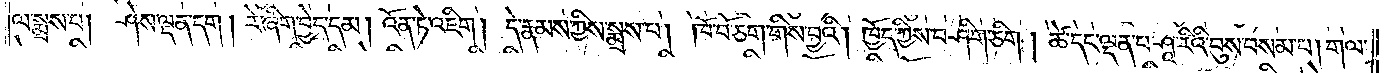ལ་སྨྲས་པ། ཤེས་ལྡན་དག །རེ་ཞིག་བྱེད་དམ། འོན་ཏེ་འཇིག །དེ་རྣམས་ཀྱིས་སྨྲས་པ། ཁོ་བོ་ཅག་གིས་བྱའི། །ཁྱོད་ཀྱིས་བཤིག་ཅིག །ཚེ་དང་ལྡན་པ་ཤཱ་རིའི་བུས་བསམ་པ། གལ་
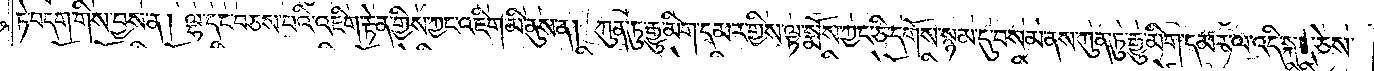ཏེ་བདག་གིས་བྱས་ན། ལྷ་དང་བཅས་པའི་འཇིག་རྟེན་གྱིས་ཀྱང་འཇིག་མི་ནུས་ན། ཀུན་ཏུ་རྒྱུ་མིག་དམར་གྱིས་ལྟ་སྨོས་ཀྱང་ཅི་དགོས་སྙམ་དུ་བསམ་ནས་ཀུན་ཏུ་རྒྱུ་མིག་དམར་ལ་འདི་སྐད་ཅེས་
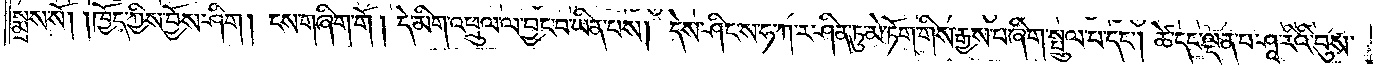སྨྲས་སོ། །ཁྱོད་ཀྱིས་བྱོས་ཤིག །ངས་གཞིག་གོ །དེ་མིག་འཕྲུལ་ལ་བྱང་བ་ཡིན་པས། དེས་ཤིང་ས་ཧ་ཀ་ར་ཤིན་ཏུ་མེ་ཏོག་གིས་རྒྱས་པ་ཞིག་སྤྲུལ་པ་དང༌། ཚེ་དང་ལྡན་པ་ཤཱ་རིའི་བུས་
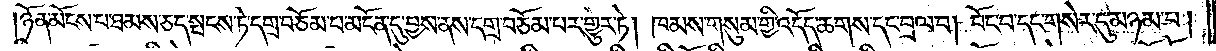ཉོན་མོངས་པ་ཐམས་ཅད་སྤངས་ཏེ་དགྲ་བཅོམ་པ་མངོན་དུ་བྱས་ནས་དགྲ་བཅོམ་པར་གྱུར་ཏེ། ཁམས་གསུམ་གྱི་འདོད་ཆགས་དང་བྲལ་བ། བོང་བ་དང་གསེར་དུ་མཉམ་པ།
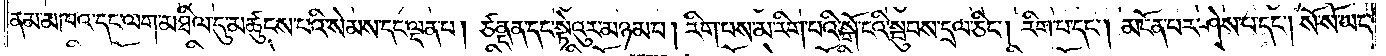ནམ་མཁའ་དང་ལག་མཐིལ་དུ་མཚུངས་པའི་སེམས་དང་ལྡན་པ། ཙནྡན་དང་སྟེའུར་མཉམ་པ། རིག་པས་མ་རིག་པའི་སྒོ་ངའི་སྦུབས་དྲལ་ཅིང༌། རིག་པ་དང༌། མངོན་པར་ཤེས་པ་དང༌། སོ་སོ་ཡང་
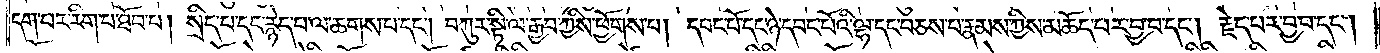དག་པར་རིག་པ་ཐོབ་པ། སྲིད་པ་དང་རྙེད་པ་ལ་ཆགས་པ་དང༌། བཀུར་སྟི་ལ་རྒྱབ་ཀྱིས་ཕྱོགས་པ། དབང་པོ་དང་ཉེ་དབང་པོའི་ལྷ་དང་བཅས་པ་རྣམས་ཀྱིས་མཆོད་པར་བྱ་བ་དང༌། རྗེད་པར་བྱ་བ་དང༌།
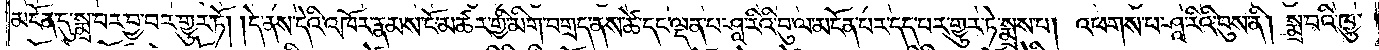མངོན་དུ་སྨྲ་བར་བྱ་བར་གྱུར་ཏོ། །དེ་ནས་དེའི་འཁོར་རྣམས་ངོ་མཚར་གྱི་མིག་བགྲད་ནས་ཚེ་དང་ལྡན་པ་ཤཱ་རིའི་བུ་ལ་མངོན་པར་དད་པར་གྱུར་ཏེ་སྨྲས་པ། འཕགས་པ་ཤཱ་རིའི་བུས་ནི། སྨྲ་བའི་ཁྱུ་
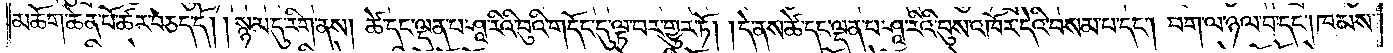མཆོག་ཆེན་པོ་ཚར་བཅད་དོ། །སྙམ་དུ་རིག་ནས། ཚེ་དང་ལྡན་པ་ཤཱ་རིའི་བུའི་གདོང་དུ་ལྟ་བར་གྱུར་ཏོ། །དེ་ནས་ཚེ་དང་ལྡན་པ་ཤཱ་རིའི་བུས་འཁོར་དེའི་བསམ་པ་དང༌། བག་ལ་ཉལ་བ་དང༌། ཁམས་
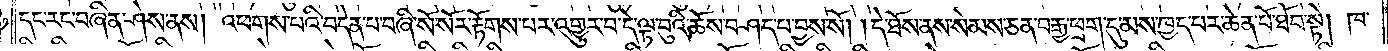དང་རང་བཞིན་ཤེས་ནས། འཕགས་པའི་བདེན་པ་བཞི་སོ་སོར་རྟོགས་པར་འགྱུར་བ་དེ་ལྟ་བུའི་ཆོས་བཤད་པ་བྱས་སོ། །དེ་ཐོས་ནས་སེམས་ཅན་བརྒྱ་ཕྲག་དུ་མས་ཁྱད་པར་ཆེན་པོ་ཐོབ་སྟེ། ཁ་
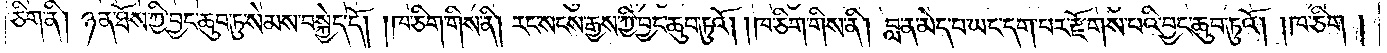ཅིག་ནི། ཉན་ཐོས་ཀྱི་བྱང་ཆུབ་ཏུ་སེམས་བསྐྱེད་དོ། །ཁ་ཅིག་གིས་ནི། རང་སངས་རྒྱས་ཀྱི་བྱང་ཆུབ་ཏུའོ། །ཁ་ཅིག་གིས་ནི། བླ་ན་མེད་པ་ཡང་དག་པར་རྫོགས་པའི་བྱང་ཆུབ་ཏུའོ། །ཁ་ཅིག །
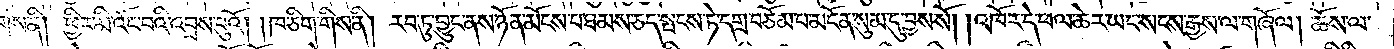གིས་ནི། ཕྱིར་མི་འོང་བའི་འབྲས་བུའོ། །ཁ་ཅིག་གིས་ནི། རབ་ཏུ་བྱུང་ནས་ཉོན་མོངས་པ་ཐམས་ཅད་སྤངས་ཏེ་དགྲ་བཅོམ་པ་མངོན་སུམ་དུ་བྱས་སོ། །འཁོར་དེ་ཕལ་ཆེར་ཡང་སངས་རྒྱས་ལ་གཞོལ། ཆོས་ལ་
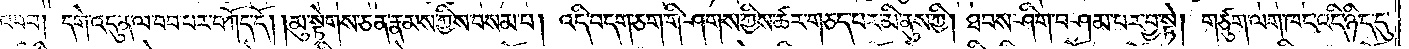འབབ། དགེ་འདུན་ལ་བབ་པར་བཀོད་དོ། །མུ་སྟེགས་ཅན་རྣམས་ཀྱིས་བསམ་པ། འདི་བདག་ཅག་གིས་ཤགས་ཀྱིས་ཚར་གཅད་པར་མི་ནུས་ཀྱི། ཐབས་ཤིག་བཤམ་པར་བྱ་སྟེ། གཙུག་ལག་ཁང་འདི་ཉིད་དུ་
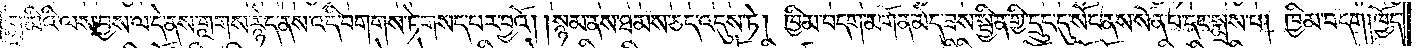གླ་མིའི་ལས་བྱས་ལ་དེ་ནས་གླགས་རྙེད་ནས་འདི་བགགས་ཏེ་གསད་པར་བྱའོ། །སྙམ་ནས་ཐམས་ཅད་འདུས་ཏེ། ཁྱིམ་བདག་མགོན་མེད་ཟས་སྦྱིན་གྱི་དྲུང་དུ་སོང་ནས་སོན་པ་དང་སྨྲས་པ། ཁྱིམ་བདག ། ཁྱོད་
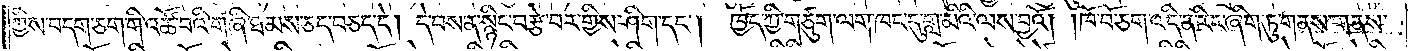ཀྱིས་བདག་ཅག་གི་འཚོ་བའི་གཞི་ཐམས་ཅད་བཅད་དེ། དེ་བས་སྙིང་བརྩེ་བར་གྱིས་ཤིག་དང༌། ཁྱོད་ཀྱི་གཙུག་ལག་ཁང་དུ་གླ་མིའི་ལས་བྱའོ། །ཁོ་བོ་ཅག་འདི་ན་རིང་ཞིག་ཏུ་གནས་གནས་
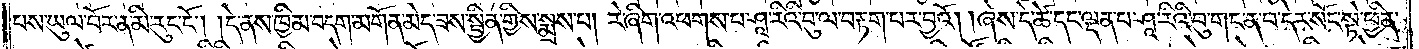པས་ཡུལ་བོར་ན་མི་རུང་ངོ༌། །དེ་ནས་ཁྱིམ་བདག་མགོན་མེད་ཟས་སྦྱིན་གྱིས་སྨྲས་པ། རེ་ཞིག་འཕགས་པ་ཤཱ་རིའི་བུ་ལ་བརྟག་པར་བྱའོ། །ཞེས་དེ་ཚེ་དང་ལྡན་པ་ཤཱ་རིའི་བུ་གང་ན་བ་དེར་སོང་སྟེ་ཕྱིན་
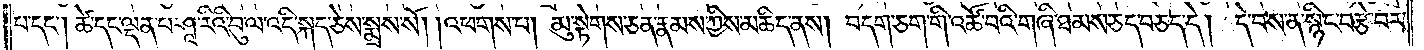པ་དང༌། ཚེ་དང་ལྡན་པ་ཤཱ་རིའི་བུ་ལ་འདི་སྐད་ཅེས་སྨྲས་སོ། །འཕགས་པ། མུ་སྟེགས་ཅན་རྣམས་ཀྱིས་མཆིད་ནས། བདག་ཅག་གི་འཚོ་བའི་གཞི་ཐམས་ཅད་བཅད་དེ། དེ་བས་ན་སྙིང་བརྩེ་བར་
